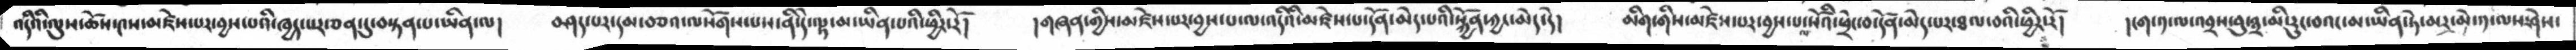འདིའི་ལུས་ཆོས་༤ས་མཛེས་པར་བྱས་པའི་ཁྱད་པར་ཅན་དུ་བསྟན་པ་ཡིན་ལ།  བཤད་པར་དམ་བཅའ་ལསོགས་པས་ནི་དེ་ལྟ་མ་ཡིན་པའི་ཕྱིར་རོ།  །གཞན་གྱིས་མཛེས་པར་བྱས་པ་ལ་འདིའི་མཛེས་པ་དོན་མེད་པའི་སྐྱོན་ཀྱང་མེད་དེ།   མིག་གིས་མཛེས་པར་བྱས་པ་ལ་སོའི་ཕྲེང་བ་དོན་མེད་པར་ཐལ་བའི་ཕྱིར་རོ།  །ངག་༡་ལ་འབྲས་བུ་༣་མི་རུང་བའང་མ་ཡིན་ཏེ་མར་མེ་༡་ལས་ཤེས་
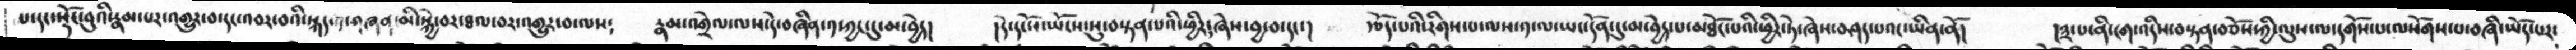པ་དང་སྡོང་བུའི་རྣམ་པར་འགྱུར་བ་དང་འབར་བའི་སྐད་༡་གཞན་མི་སྐྱེ་བར་ཐལ་བར་འགྱུར་བ་ལས༴  རྣམ་འགྲེལ་ལས་དེ་བཞིན་༡་ཀྱང་དུ་མ་བྱེད།  །དེ་དངོས་ཡོངས་སུ་བསྟན་པའི་ཕྱིར་ཞེས་བྱ་བ་དང་།  རྩོད་པའི་རིགས་པ་ལས་༡་ལ་ཡང་དོན་དུ་མ་བྱེད་པ་མཐོང་པའི་ཕྱིར་ཏེ་ཞེས་བཤད་པའང་ཡིན་ནོ།   །༣་པ་ནི་ངག་འདིས་བསྟན་བཅོས་ཀྱི་ལུས་ལ་དགོས་པ་ལསོགས་པ་བཞི་ཡོད་པར་
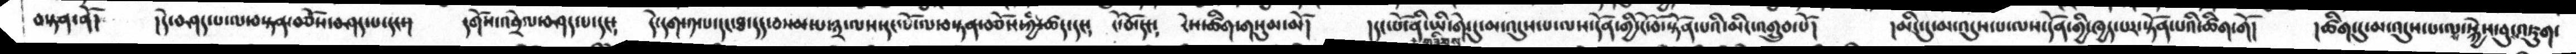བསྟན་ནོ།  །དེ་བཤད་པ་ལ་བསྟན་བཅོས་བཤད་པ་དང་།  དགོས་འབྲེལ་བཤད་པ་དང༴  དེ་དག་༡་པ་དང་ཐ་དད་བསམ་པ་༣་ལས་དང་པོ་ལ་བསྟན་བཅོས་ཀྱི་ཚད་དང༴  ངོ་བོ་དང༴  ངེས་ཚིག་གསུམ་མོ།  །དང་པོ་ནི་ཡི་གེ་དུ་མ་འདུས་པ་ལས་དོན་གྱི་ངོ་བོ་སྟོན་པའི་མིང་འགྲུབ་པོ།  །མིང་དུ་མ་འདུས་པ་ལས་དོན་གྱི་ཁྱད་པར་སྟོན་པའི་ཚིག་གོ།  །ཚིག་དུ་མ་འདུས་པ་ལས་སྐྱེས་བུ་འཇུག་
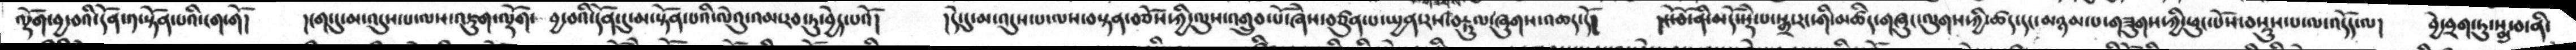ལྡོག་བྱ་བའི་དོན་༡་སྟོན་པའི་ངག་གོ།   །ངག་དུ་མ་འདུས་པ་ལས་འཇུག་ལྡོག་ བྱ་བའི་དོན་དུ་མ་སྟོན་པའི་ལེའུ་འམ་རབ་ཏུ་བྱེད་པའོ།   །དེ་དུ་མ་འདུས་པ་ལས་བསྟན་བཅོས་ཀྱི་ལུས་འགྲུབ་པོ་ཞེས་བཙུན་པ་སྤྱན་རས་བརྟུལ་ཞུགས་འཆད་དོ།   །ངོ་བོ་ནི་མདོསྡེ་པ་སྒྲ་རང་གི་མཚིད་གཞུང་ལུགས་ཀྱི་ཚད་དང་མཉམ་པ་གཟུགས་ཀྱིཕུང་པོས་བསྡུས་པ་ལ་འདདོ་ལ།   བྱེ་བྲག་ཏུ་སྨྲ་བ་ནི་
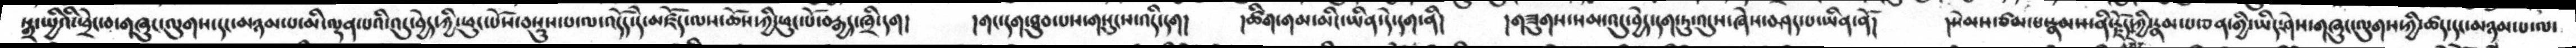སྒྲ་སྤྱིའི་ཕྲེང་བ་གཞུང་ལུགས་དང་མཉམ་པ་མི་ལྡན་པའི་འདུ་བྱེད་ཀྱི་ཕུང་པོས་བསྡུས་པ་ལ་འདོད་དེ་མཛོད་ལས་ཆོས་ཀྱི་ཕུང་བརྒྱད་ཁྲི་དག།   དགང་དག་ཐུབ་པས་གསུངས་འདི་དག།   །ཚིག་གམ་མིང་ཡིན་དེ་དག་ནི།  །གཟུགས་སམ་འདུ་བྱེད་དག་ཏུ་འདུས་ཞེས་བཤད་པ་ཡིན་ནོ།   །སེམས་ཙམ་པ་རྣམས་ནི་རྗོད་ཀྱི་རྣམ་པ་ཅན་གྱི་ཡིད་ཤེས་གཞུང་ལུགས་ཀྱི་ཚད་དང་མཉམ་པ་ལ་
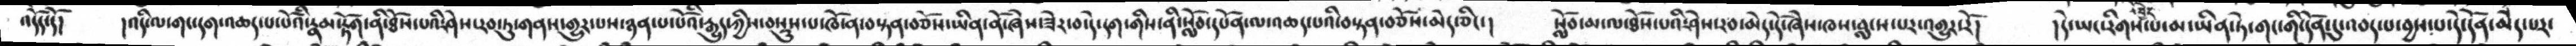འདོད་དོ།   །འདི་ལ་གང་དག་འཆད་པ་པོའི་རྣམ་རྟོག་ནི་ཐོས་པའི་ཤེས་རབ་ཏུ་གནས་གྱུར་པས་ཉན་པ་པོའི་རྒྱུད་ཀྱིས་བསྡུས་པ་ཁོ་ན་བསྟན་བཅོས་ཡིན་ནོ་ཞེས་ཟེར་བ་དེ་དག་གིས་ནི་སློབ་དཔོན་ལ་འཆད་པའི་བསྟན་བཅོས་མེད་ཅིང་།    སློབ་མ་ལ་ཐོས་པའི་ཤེས་རབ་མེད་དོ་ཞེས་ཁས་བླངས་པར་འགྱུར་རོ།   །དེ་ཡང་རིགས་འབྱེད་པ་མ་ཡིན་ཏེ་གང་གི་དོན་དུ་འབད་པ་བྱས་པ་དེ་དོན་མེད་པར་
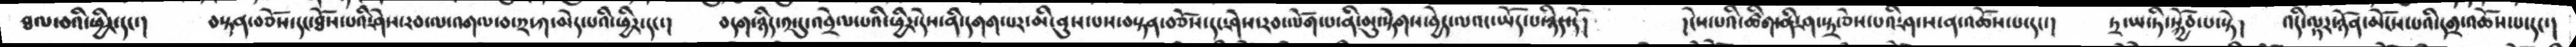ཐལ་བའི་ཕྱིར་དང་།   བསྟན་བཅོས་དང་ཐོས་པའི་ཤེས་རབ་ལ་འགལ་བར་༢་ཀ་མེད་པའི་ཕྱིར་དང་།   བདག་ཉིད་༡་དུ་འབྲེལ་པའི་ཕྱིར་དེས་ནི་དགག་པར་མི་ནུས་པས་བསྟན་བཅོས་དང་ཤེས་རབ་ལོག་པ་ནི་མུ་སྟེགས་བྱེད་ལའང་ཡོད་པ་ཉིད་དོ།   །ངེས་པའི་ཚིག་ནི་ཤ་སྟྲ་ཅེས་པའི་ཤ་ས་ན་འཆོས་པ་དང་།   ཏྲ་ཡ་ཏི་སྐྱོབ་པ་སྟེ།   འདི་ལྟར་ཉོན་མོངས་པའི་དགྲ་འཆོས་པ་དང་།
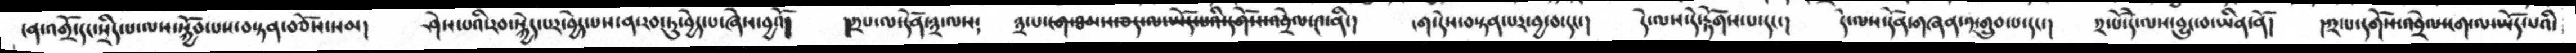ངན་འགྲོ་དང་སྲིད་པ་ལས་སྐྱོབ་པས་བསྟན་བཅོས་སམ།   ཤེས་པའི་རབ་སྐྱེད་པར་བྱེད་པས་ན་རབ་ཏུ་བྱེད་པ་ཞེས་བྱའོ།   །༢ས་ལ་དོན་༣་ལས༴   ༣་པ་ངག་ཐམས་ཅད་ལ་་ཡོད་པའི་དགོས་འབྲེལ་༤་ནི་།   ངག་དེས་བསྟན་པར་བྱ་བ་དང་།   དེ་ལས་དེ་རྟོགས་པ་དང་།   དེ་ལས་དོན་གཞན་༡་གྲུབ་པ་དང་།   ༢་པོ་དེ་ལས་བྱུང་བ་ཡིན་ནོ།   །༢་པ་དགོས་འབྲེལ་ངག་ལ་ཡོད་པའི་
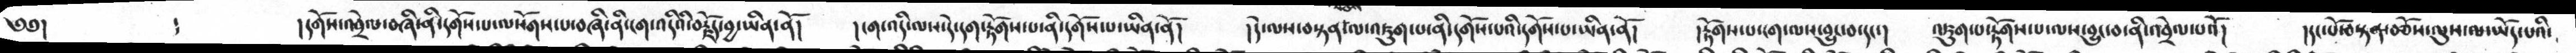༄༅།      ༴     །དགོས་འབྲེལ་བཞི་ནི་དགོས་པ་ལསོགས་པ་བཞི་ནི་ངག་འདིའི་བརྗོད་བྱ་ཡིན་ནོ།    །ངག་འདི་ལས་དེ་དག་རྟོགས་པ་ནི་དགོས་པ་ཡིན་ནོ།    །དེ་ལས་བསྟན་ལ་འཇུག་པ་ནི་དགོས་པའི་དགོས་པ་ཡིན་ནོ།    །རྟོགས་པ་ངག་ལས་བྱུང་བ་དང་།   འཇུག་པ་རྟོགས་པ་་ལས་བྱུང་བ་ནི་འབྲེལ་པའོ།   །དང་པོ་བསྟན་བཅོས་ལུས་ལ་ཡོད་པའི་
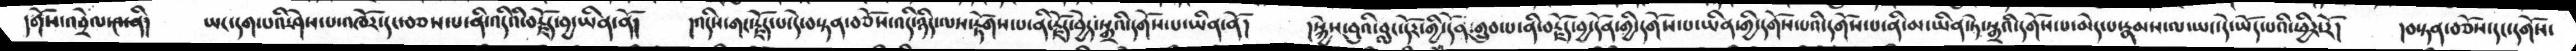དགོས་འགྲེལ་༤་ནི།   ཡང་དག་པའི་ཤེས་པ་འཁོར་དང་བཅས་པ་ནི་འདིའི་བརྗོད་བྱ་ཡིན་ནོ།    །འདིས་གང་རྗོད་པ་དེ་བསྟན་བཅོས་འདི་ཉིད་ལས་རྟོགས་པ་ནི་རྗོད་བྱེད་སྒྲའི་དགོས་པ་ཡིན་ནོ།    །སྐྱེས་བུའི་བླང་དོར་གྱི་དོན་གྲུབ་པ་ནི་བརྗོད་བྱ་དོན་གྱི་དགོས་པ་ཡིན་གྱི་དགོས་པའི་དགོས་པ་ནི་མ་ཡིན་ཏེ་སྒྲའི་དགོས་པ་མེད་པ་རྣམས་ལ་ཡང་དེ་ཡོད་པའི་ཕྱིར་རོ།    །བསྟན་བཅོས་དང་དགོས་
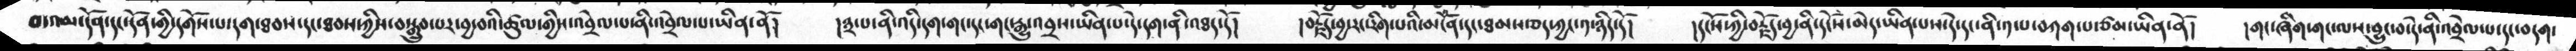བ་འམ་དོན་དང་དོན་གྱི་དགོས་པ་དག་ཐབས་དང་ཐབས་ཀྱིས་བསྒྲུབ་པར་བྱ་བའི་ཚུལ་གྱིས་འབྲེལ་པ་ནི་འབྲེལ་པ་ཡིན་ནོ།   །༣་པ་ནི་འདི་དག་གང་དང་གང་རྒྱུ་འབྲས་ཡིན་པ་དེ་དག་ནི་འཐད་དོ།     །བརྗོད་བྱ་རང་རིག་པའི་མངོན་དང་ཐམས་ཅད་ཀྱང་༡་ཉིད་དོ།   །དངོས་ཀྱི་བརྗོད་བྱ་ནི་དངོས་མེད་ཡིན་པས་དེ་དང་ནི་༡་པ་བཀག་པ་ཙམ་ཡིན་ནོ།    །གང་ཞིག་གང་ལས་བྱུང་བ་དེ་ནི་འབྲེལ་པ་དང་བདག་
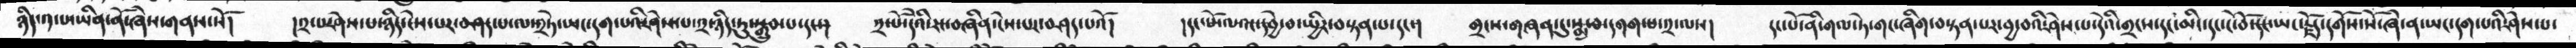ཉིད་༡་པ་ཡིན་ནོ་ཞེས་གནས་སོ།    །༢་པར་ཤེས་པ་ཉིད་ངེས་པར་བཤད་པ་ལ་༢ཏེ་ཡང་དག་པའི་ཤེས་པ་༢་ཉིད་ཏུ་སྒྲུབ་པ་དང་།    ༢་པོ་དེའི་རང་བཞིན་ངེས་པར་བཤད་པའོ།    །དང་པོ་ལ་འང་དབྱེ་བ་སྤྱིར་བསྟན་པ་དང་།   གྲངས་གཞན་དུ་སྨྲ་བ་དགག་པ་༢་ལས།    དང་པོ་ནི་གལ་ཏེ་གང་ཞིག་བསྟན་པར་བྱ་བའི་ཤེས་པ་དེའི་གྲངས་དང་མིང་དང་ངོ་བོ་དང་ཡང་རྗོད་དགོས་སོ་ཞེ་ན་ཡང་དག་པའི་ཤེས་པ་
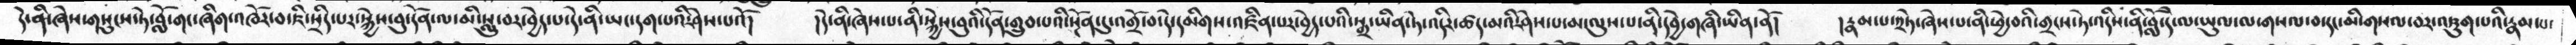དེ་ནི་ཞེས་གསུངས་ཏེ་བློ་གང་ཞིག་འཁོར་བ་ཇི་སྲིད་པར་སྐྱེས་བུ་དོན་ལ་མི་སླུ་བར་བྱེད་པ་དེ་ནི་ཡང་དག་པའི་ཤེས་པའོ།    །དེ་ནི་ཞེས་པ་ནི་སྐྱེས་བུའི་དོན་གྲུབ་པའི་སྔོན་དུ་འགྲོ་བ་དེ་དམིགས་འཛིན་པར་བྱེད་པའི་སྒྲ་ཡིན་ཏེ་འདིར་ཚད་མའི་ཤེས་པ་མ་ལུས་པ་ནི་དབྱེ་གཞི་ཡིན་ནོ།    །རྣམ་པ་༢ཏེ་ཞེས་པ་ནི་ཕྱེ་བའི་གྲངས་ཏེ་འདིས་ནི་བློ་དེ་ལ་ཡུལ་མ་གསལ་བ་དང་མི་གསལ་བར་འཇུག་པའི་རྣམ་པ་
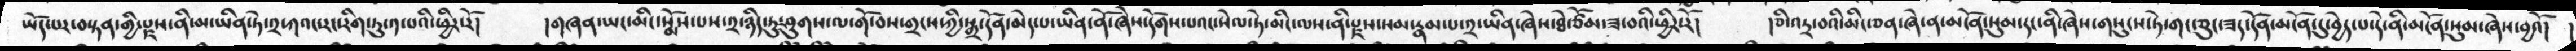ཡོད་པར་བསྟན་གྱི་རྫས་ནི་མ་ཡིན་ཏེ་༢་ཀའང་རང་རིག་ཏུ་༡་པའི་ཕྱིར་རོ།    །གཞན་ཡང་མིང་སྨོས་པས་༢་ཉིད་ཏུ་ཤུགས་ལ་གོ་བས་གྲངས་ཀྱི་སྒྲ་དོན་མེད་པ་ཡིན་ནོ་ཞེས་དོགས་པའང་སེལ་ཏེ་མིང་ལས་ནི་རྫས་སམ་རྣམ་པ་༢་ཡིན་ཞེས་ཐེ་ཙོམ་ཟ་བའི་ཕྱིར་རོ།    །ཅི་འདྲ་བའི་མིང་ཅན་ཞེ་ན་མངོན་སུམ་དང་ནི་ཞེས་གསུངས་ཏེ་གང་ཅུང་ཟད་དོན་མངོན་དུ་བྱེད་པ་དེ་ནི་མངོན་སུམ་ཞེས་བྱའོ།
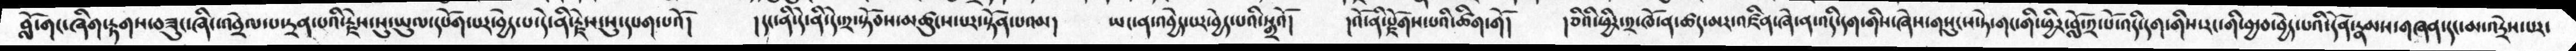བློ་གང་ཞིག་རྟགས་བཟུང་ཞིང་འབྲེལ་པ་དྲན་པའི་རྗེས་སུ་ཡུལ་དཔོག་པར་བྱེད་པ་དེ་ནི་རྗེས་སུ་དཔག་པའོ།    །དང་ནི་དེ་ནི་དེ་༢་སྟོབས་མཚུངས་པར་སྟོན་པའམ།   ཡང་ན་འབྱེད་པར་བྱེད་པའི་སྒྲའོ།    །འོ་ནི་རྫོགས་པའི་ཚིག་གོ།   །ཅིའི་ཕྱིར་༢་ཁོ་ན་ཚད་མར་འཛིན་ཞེ་ན་འདི་དག་གིས་ཞེས་གསུངས་ཏེ་གང་གི་ཕྱིར་བློ་༢་པོ་འདི་དག་གིས་རང་གི་བྱ་བ་བྱེད་པའི་དོན་རྣམས་གཞན་དང་མ་འདྲེས་པར་
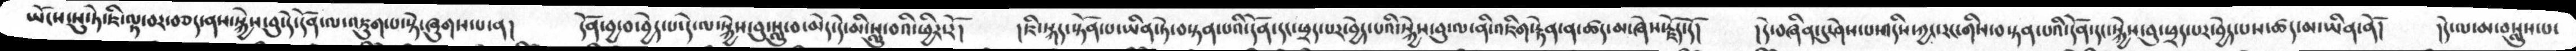ཡོངས་སུ་ཏེ་ཇི་ལྟ་བར་བཅད་ནས་སྐྱེས་བུ་དེ་དོན་ལ་འཇུག་པ་སྟེ་ཞུགས་པ་ན།    དོན་བྱ་བ་བྱེད་པ་དེ་ལ་སྐྱེ་བུ་སླུ་བ་མེད་དེ་མི་སླུ་བའི་ཕྱིར་རོ།   །ཇི་སྐད་སྟོན་པ་ཡིན་ཏེ་བསྟན་པའི་དོན་དང་ཕྲད་པར་བྱེད་པའི་སྐྱེས་བུ་ལ་ནི་འཇིག་རྟེན་ན་ཚད་མ་ཞེས་རྗོད་དོ།    །དེ་བཞིན་དུ་ཤེས་པ་འདིས་ཀྱང་རང་གིས་བསྟན་པའི་དོན་དང་སྐྱེས་བུ་ཕྲད་པར་བྱེད་པས་ཚད་མ་ཡིན་ནོ།   །དེ་ལ་མ་བསླུས་པ་
